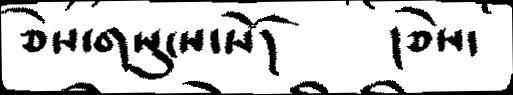ཅེས་གསུངས་སོ།         །ཅེས་
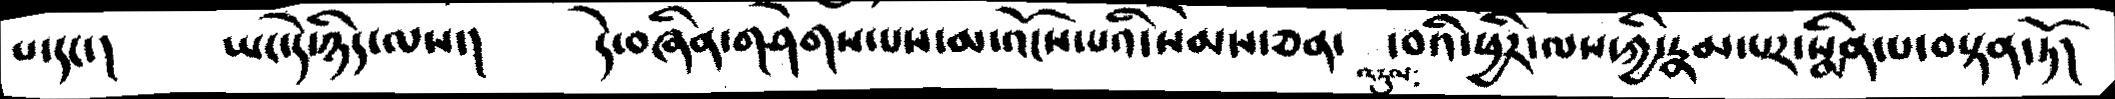པ་དང་།   ཡང་དེ་ཉིད་ལས་།   དེ་བཞིན་གཤེགས་པས་མ་འོངས་པའི་སེམས་ཅན་   འདུལ་བའི་ཕྱིར་ལས་ཀྱི་རྣམ་པར་སྨིན་པ་བསྟན་ཏོ།
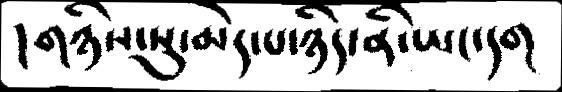།གཉིས་སུ་མེད་པ་ཉིད་ནི་ཡང་དག
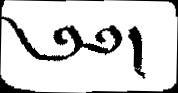༄༅།
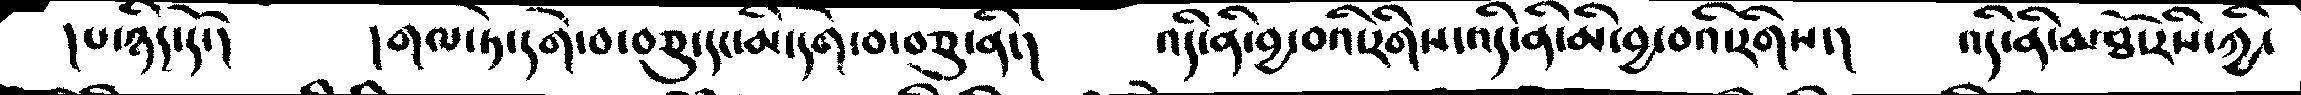།པ་ཉིད་དོ་།      །གལ་ཏེ་དགེ་བ་བཅུ་དང་མི་དགེ་བ་བཅུ་ནི་།     འདི་ནི་བྱ་བའི་རིགས་འདི་ནི་མི་བྱ་བའི་རིགས་།   འདི་ནི་མཐོ་རིས་ཀྱི་
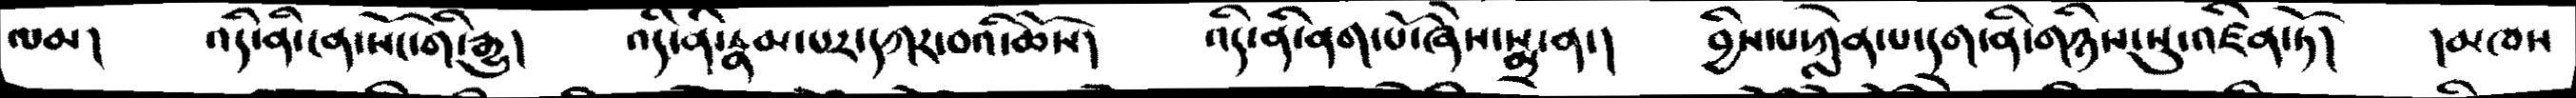ལམ།   འདི་ནི་ངན་སོང་གི་རྒྱུ།   འདི་ནི་རྣམ་པར་དཀར་བའི་ཆོས།    འདི་ནི་ནག་པོ་ཞེས་སྨྲ་ན་།   བྱིས་པ་ཀླེན་པ་དག་ནི་གཉིས་སུ་འཛིན་ཏོ།   །མཁས
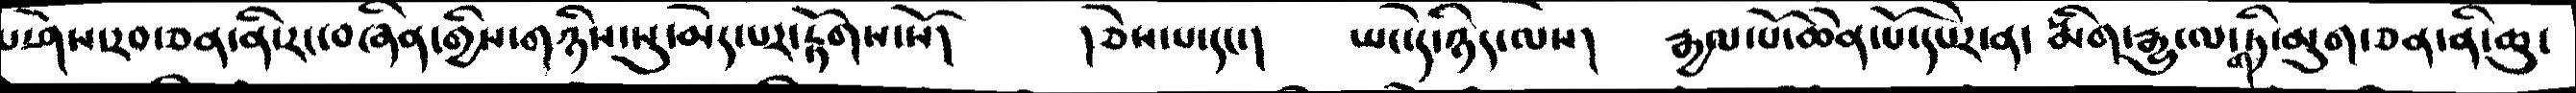པ་ཤེས་རབ་ཅན་ནི་རང་བཞིན་གྱིས་གཉིས་སུ་མེད་པར་རྟོགས་སོ།     །ཅེས་པ་དང་།    ཡང་དེ་ཉིད་ལས།   རྒྱལ་པོ་ཆེན་པོ་དཔེར་ན་སྨིག་རྒྱུ་ལ་གཏི་མུག་ཅན་ནི་ཆུ་
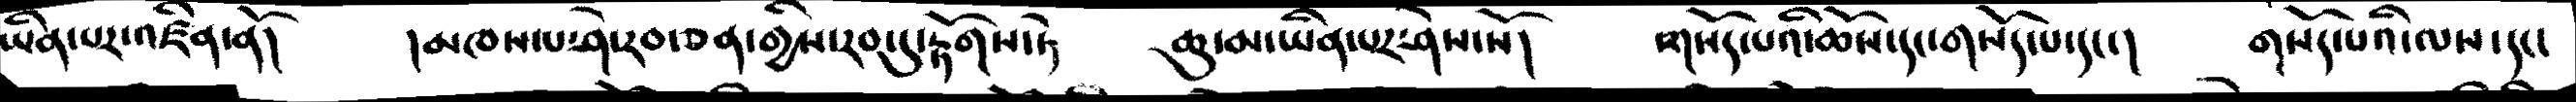ཡིན་པར་འཛིན་ནོ།   །མཁས་པ་ཤེས་རབ་ཅན་གྱིས་རབ་དུ་རྟོགས་ཏེ       ཆུ་མ་ཡིན་པར་ཤེས་སོ།    གསོད་པའི་ཆོས་དང་གསོད་པ་དང་།     གསོད་པའི་ལས་དང་
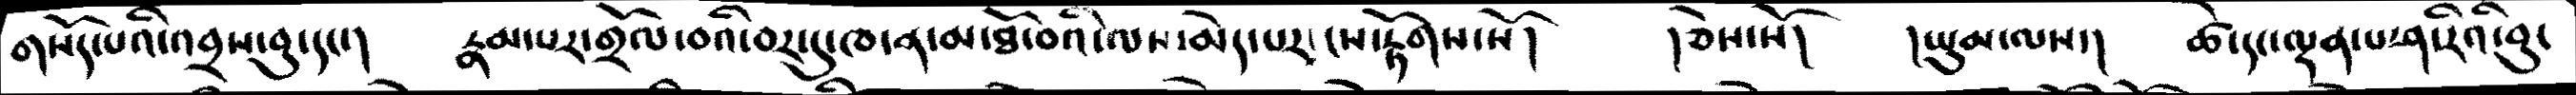གསོད་པའི་འབྲས་བུ་དང་།    རྣམ་པར་གྲོལ་བའི་བར་དུ་ཁ་ན་མ་ཐོ་བའི་ལས་མེད་པར་ངས་རྟོགས་སོ།     །ཅེས་སོ།   །ཡུམ་ལས་།     ཚེ་དང་ལྡན་པ་ཤ་རིའི་བུ་
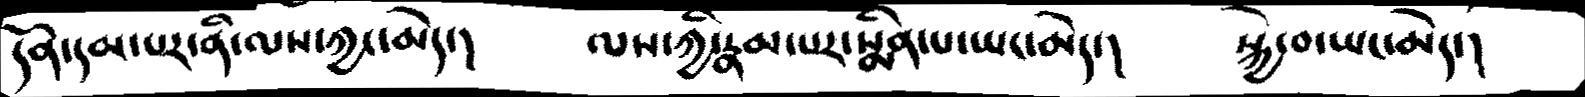དོན་དམ་པར་ནི་ལས་ཀྱང་མེད་།     ལས་ཀྱི་རྣམ་པར་སྨིན་པ་ཡང་མེད་།     སྐྱེ་བ་ཡང་མེད་།
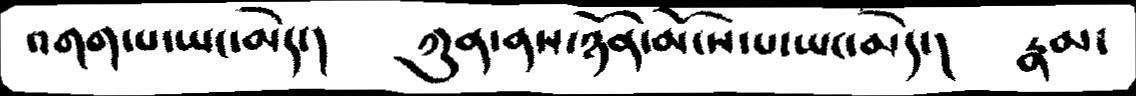འགག་པ་ཡང་མེད་།    ཀུན་ནས་ཉོན་མོངས་པ་ཡང་མེད་།    རྣམ་
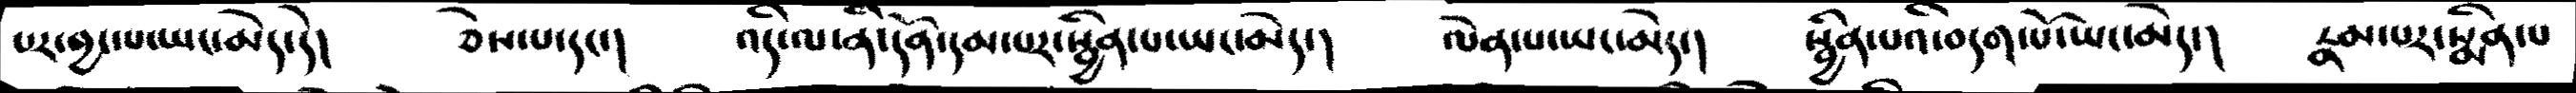པར་བྱང་པ་ཡང་མེད་དེ།     ཅེས་པ་དང་།    འདི་ལ་ནི་དོན་དམ་པར་སྦྱིན་པ་ཡང་མེད་།    ལེན་པ་ཡང་མེད་།    སྦྱིན་པའི་བདག་པོ་ཡང་མེད་།  རྣམ་པར་སྨིན་པ
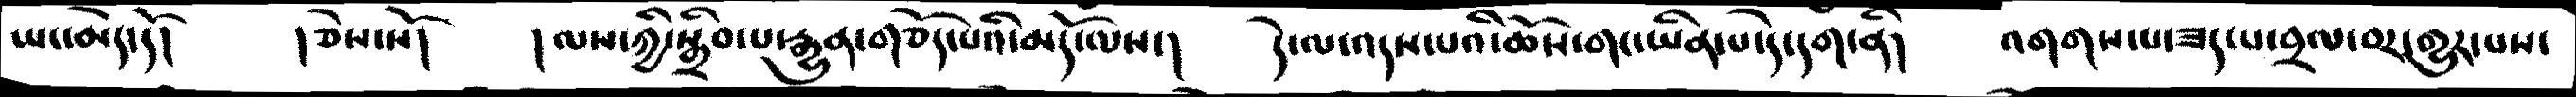ཡང་མེད་དོ།     །ཅེས་སོ།     །ལས་ཀྱི་སྒྲིབ་རྒྱུན་གཅོད་པའི་མདོ་ལས་།    དེ་ལ་འདས་པའི་ཆོས་གང་ཡིནཔ་དེ་དག་ནི།   འགགས་པ་ཟད་པ་བྲལ་བར་གྱུར་པས་
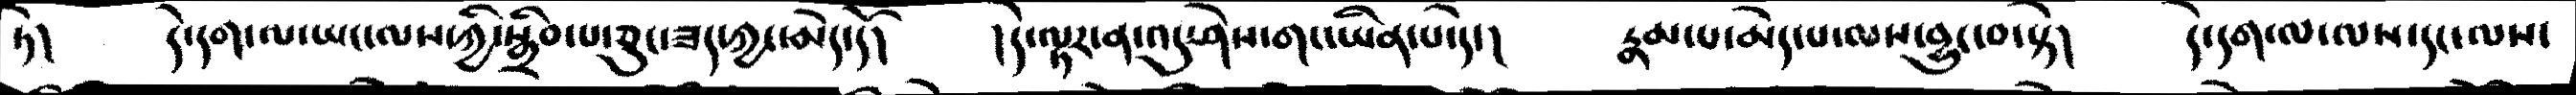ཏེ།   དེ་དག་ལ་ཡང་ལས་ཀྱི་སྒྲིབ་པ་ཅུང་ཟད་ཀྱང་མེད་དོ།     །དེ་ལྟར་ན་འདུ་ཤེས་གང་ཡིན་པ་དེ་།   རྣམ་པ་མེད་པ་ལས་བྱུང་བ་སྟེ།   དེ་དག་ལ་ལས་དང་ལས་
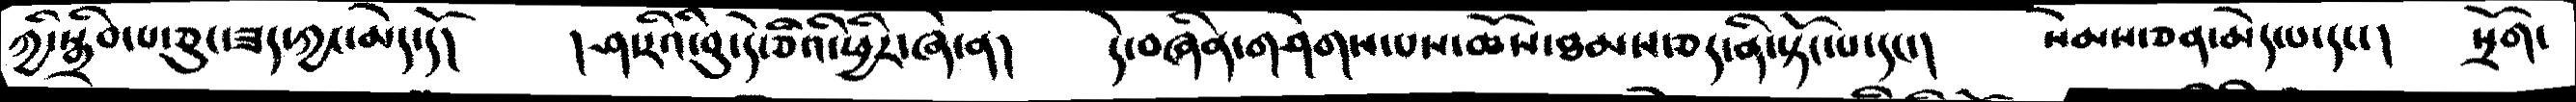ཀྱི་སྒྲིབ་པ་ཅུང་ཟད་ཀྱང་མེད་དོ།    །ཤ་རིའི་བུ་དེ་ཅིའི་ཕྱིར་ཞེ་ན།   དེ་བཞིན་གཤེགས་པས་ཆོས་ཐམས་ཅད་ནི་སྟོང་པ་དང་།   སེམས་ཅན་མེད་པ་དང་།  སྲོག་
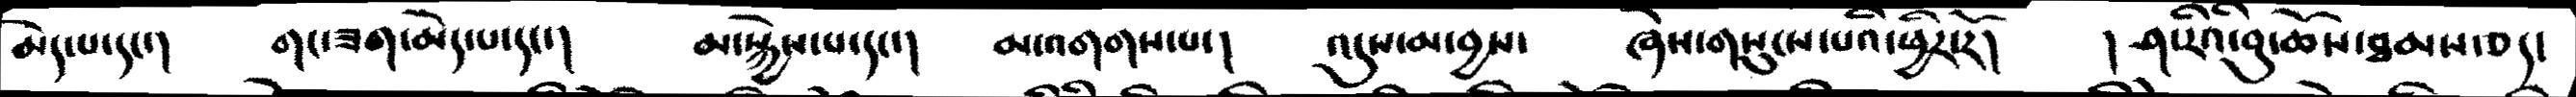མེད་པ་དང་།   གང་ཟག་མེད་པ་དང་།    མ་སྐྱེས་པ་དང་།     མ་འགགས་པ་།    འདུས་མ་བྱས་    ཞེས་གསུངས་པའི་ཕྱིར་རོ།   ། ཤ་རིའི་བུ་ཆོས་ཐམས་ཅད་
